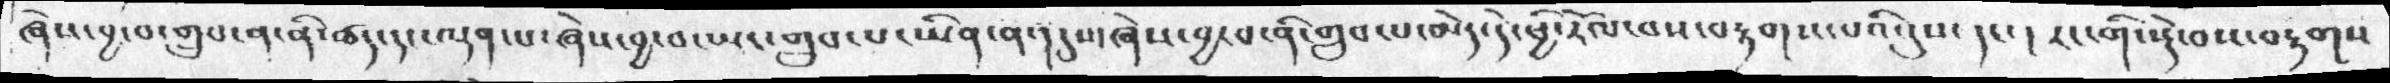ཞེས་བྱ་བ་གྲུབ་ན་ནི་ཚད་དང་ལྡན་པ་ཞེས་བྱ་བ་ཡང་གྲུབ་པ་ཡིན་ན་།  དུས་ཞེས་བྱ་བ་ནི་གྲུབ་པ་མེད་དེ་ཕྱི་རོལ་བས་བརྟགས་པའི་དུས་དང་ །  རང་གི་སྡེ་བས་བརྟགས་
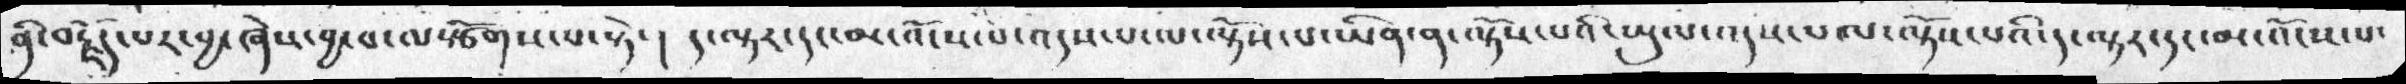ནི་བརྗོད་པར་བྱ་ཞེས་བྱ་བ་ལསྩོགས་པ་སྟེ་།   ད་ལྟར་དང་མ་འོངས་པ་འདས་པ་ལ་ལྟོས་པ་ཡིན་ན་ལྟོས་པའི་ཡུལ་འདས་པ་ལ་ལྟོས་པའི་ད་ལྟར་དང་མ་འོངས་པ་
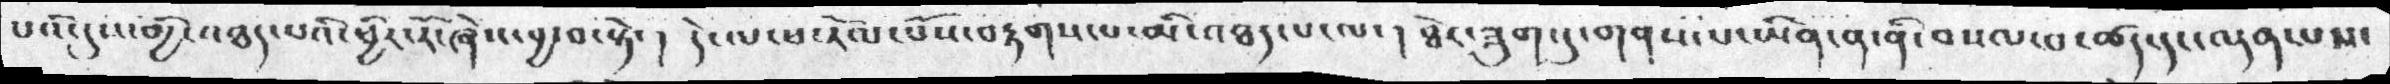པའི་དུས་གྱི་འཐད་པའི་ཕྱིར་རོ་ཞེས་བྱ་བ་སྟེ་།  དེ་ལ་ཕ་རོལ་པོས་བརྟགས་པ་མི་འཐད་པ་ལ་ ། ཐེར་ཟུག་དུ་གནས་པ་ཡིན་ན་ནི་བསལ་བ་ཚད་དང་ལྡན་པས་
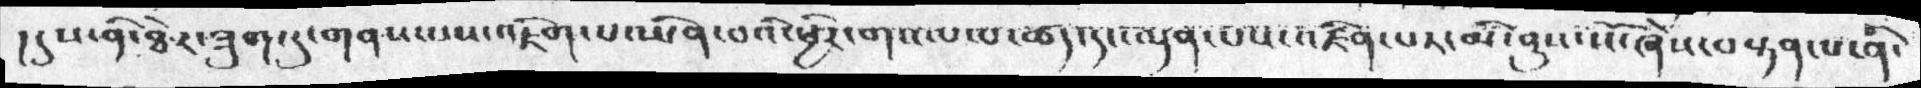།དུས་ནི་ཐེར་ཟུག་དུ་གནས་པས་འཇིག་པ་ཡིན་བའི་ཕྱིར་གསལ་བ་ཚད་དང་ལྡན་པས་འཛིན་པར་མི་ནུས་སོ་ཞེས་བསྟན་པ་ནི་
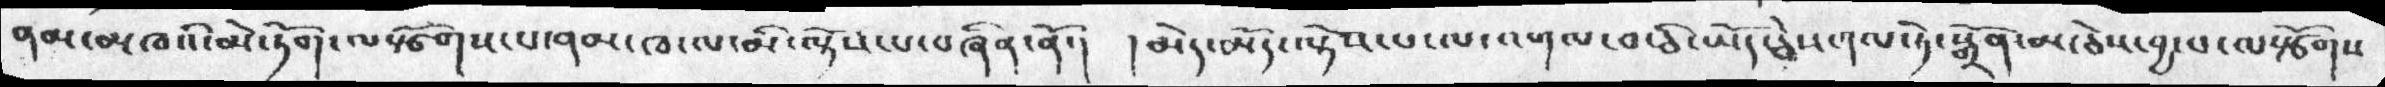ནམ་མཁའི་མེ་ཏོག་ལསྩོགས་པ་ནམ་ཁ་ལ་མི་ལྟོས་པ་བཞིན་ནོ་།    ། མེད་མོ་ལྟོས་པ་ལ་འགལ་བ་ཅི་ཡོད་ཅེས་གལ་ཏེ་སྒྲོན་མ་ཅེས་བྱ་བ་ལསྩོགས་
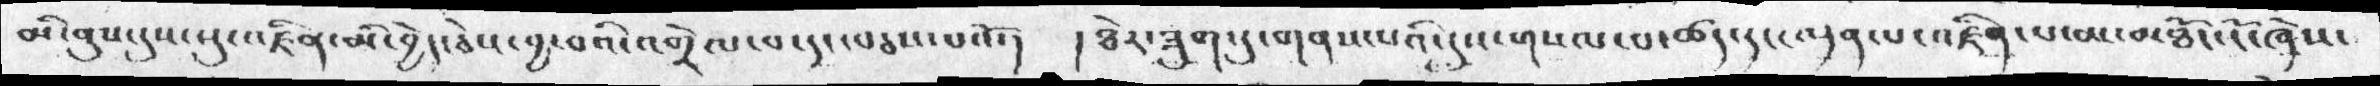མི་ནུས་དུས་སུ་འཛིན་མི་བྱེད་ཅེས་བྱ་བའི་འགྲེལ་བ་དང་བཅས་པའོ་།  །ཟེར་ཟུག་དུ་གནས་པའི་དུས་གསལ་བ་ཚད་དང་ལྡན་པ་འཛིན་པ་མ་མཐོང་ངོ་ཞེས་
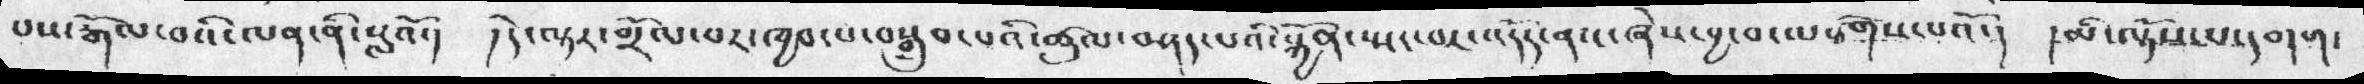པས་རྒོལ་བའི་ལན་ནི་སླའོ་།  །དེ་ལྟར་གྲོལ་པར་ཁྱབ་པ་བསྒྲུབ་པའི་ཚུལ་བཤད་པའི་སྐྱོན་སྤང་བར་འདོད་ནས་ཞེས་བྱ་བ་ལསྩོགས་པའོ་། །མི་ལྟོས་པ་དགག་
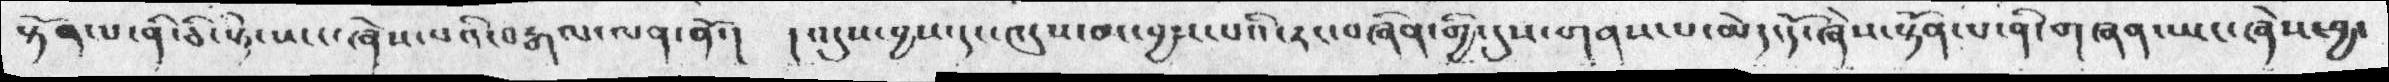སྟོན་པ་ནི་ཅི་སྟེ་སྤང་ཞེས་པའི་བརྒལ་ལན་ནོ་། །འདུས་བྱས་དང་འདུས་མ་བྱས་པའི་རང་བཞིན་གྱི་དུས་གནས་པ་མེད་དོ་ཞེས་སྟོན་པ་ནི་གཞན་ཡང་ཞེས་བྱ་
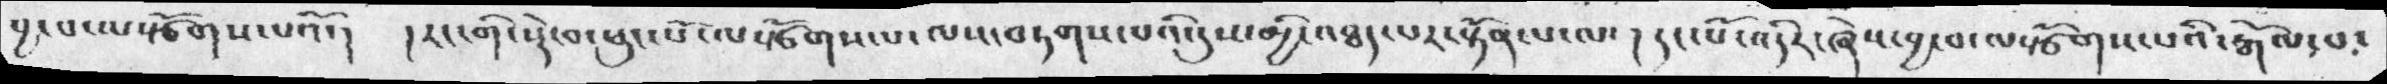བྱ་བ་ལསྩོགས་པའོ་།  །རང་གི་སྡེ་བ་ཕུང་པོ་ལསྩོགས་པ་ལས་བཏགས་པའི་དུས་མྱི་འཐད་པར་སྟོན་པ་ལ་ ། ། དང་པོ་འདིར་ཞེས་བྱ་བ་ལསྩོགས་པའི་རྒོལ་པ་
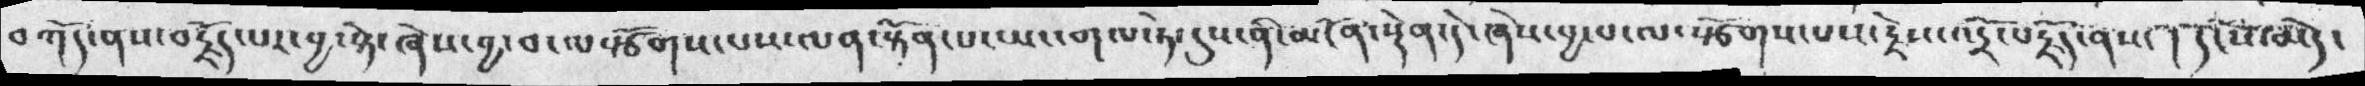བཀོད་ནས་བརྗོད་པར་བྱ་སྟེ་ཞེས་བྱ་བ་ལསྩོགས་པས་ལན་སྟོན་པ་ཡང་གལ་ཏེ་དུས་ནི་མངོན་སྡེན་དེ་ཞེས་བྱ་བ་ལསྩོགས་པས་རྗེས་འདྲོ་བརྗོད་ནས་  ། དངོས་མེ་
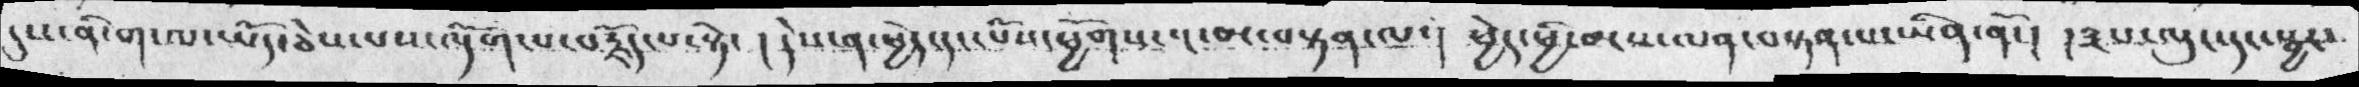དུལ་ནི་ག་ལ་ཡོད་ཅེསདཔས་ལྡོག་པ་བརྗོད་པ་སྟེ་   ། དེས་ན་ཕྱེད་དང་པོས་ཕྱོགས་སྔ་མ་བསྟན་ལ་།  ཕྱེད་ཕྱི་མས་ལན་བསྟན་པ་ཡིན་ནོ་།  །༣པ་ལུང་དང་སྦྱར་
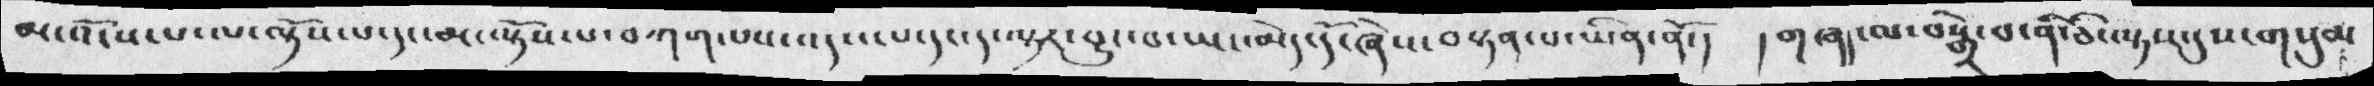མ་འོངས་པ་ལ་ལྟོས་པ་དང་མ་ལྟོས་པ་བཀག་པས་འདས་པ་དང་ད་ལྟར་བྱུང་པ་ཡང་མེད་དོ་ཞེས་བསྟན་པ་ཡིན་ནོ་།  །གཞད་མ་བསྒྲེ་བ་ནི་ཅི་ལྟས་དུས་གསུམ་
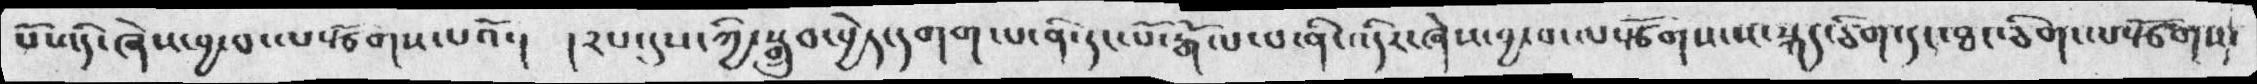པོས་དེ་ཞེས་བྱ་བ་ལསྩོགས་པའོ་།  །༢པ་དུས་ཀྱི་སྒྲུབ་བྱེད་དགག་པ་ནི་དང་པོ་རྒོལ་པ་ནི་འདིར་ཞེས་བྱ་བ་ལསྩོགས་ས་སྐད་ཅིག་དང་ཐང་ཅིག་ལསྩོགས་
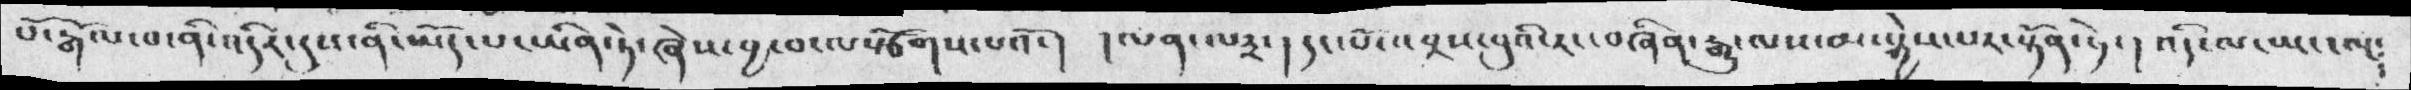པོ་རྒོལ་བ་ནི་འདིར་དུས་ནི་ཡོད་པ་ཡིན་ཏེ་ཞེས་བྱ་བ་ལསྩོགས་པའོ་།    ། ལན་ལ༣་།   དང་པོ་འབྲས་བུའི་རང་བཞིན་རྒྱུ་ལས་མ་སྐྱེས་པར་སྟོན་ཏེ་ ། འདི་ལ་ཡང་ལྔ༴
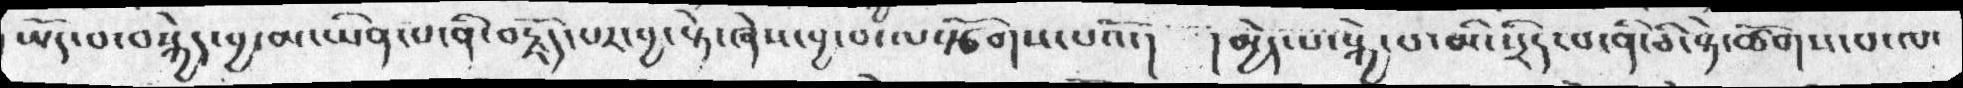ཡོད་པ་བསྐྱེད་བྱ་མ་ཡིན་པ་ནི་བརྗོད་པར་བྱ་སྟེ་ཞེས་བྱ་བ་ལསྩོགས་པའོ་།  །མྱེད་པ་སྐྱེ་པ་མི་སྲིད་པ་ནི་ཅི་སྟེ་ཚོགས་པ་ལ་
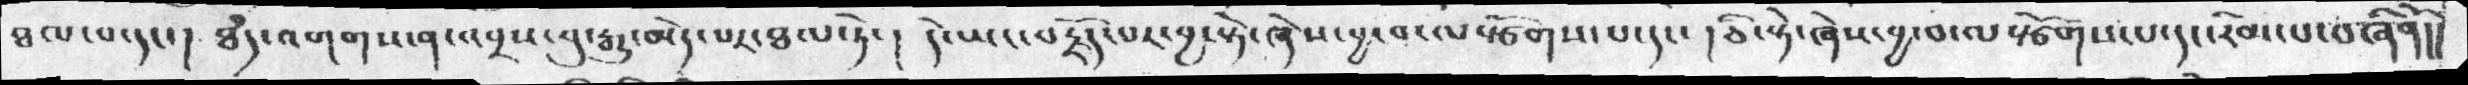ཐལ་པ་དང་།  ཐཾད་འགགས་ན་འབྲས་བུ་རྒྱུ་མེད་པར་ཐལ་ཏེ་།  དེ་ཡང་བརྗོད་པར་བྱ་སྟེ་ཞེས་བྱ་བ་ལསྩོགས་པ་དང་ ། ཅི་སྟེ་ཞེས་བྱ་བ་ལསྩོགས་པ་དང་རིམ་པ་བཞིནོ།།
